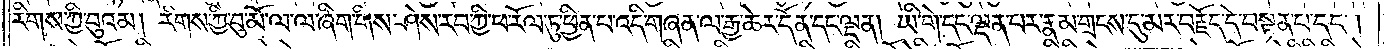རིགས་ཀྱི་བུའམ། རིགས་ཀྱི་བུ་མོ་ལ་ལ་ཞིག་གིས་ཤེས་རབ་ཀྱི་ཕ་རོལ་ཏུ་ཕྱིན་པ་འདི་གཞན་ལ་རྒྱ་ཆེར་དོན་དང་ལྡན། ཡི་གེ་དང་ལྡན་པར་རྣམ་གྲངས་དུ་མར་བརྗོད་དེ་བསྟན་པ་དང༌།
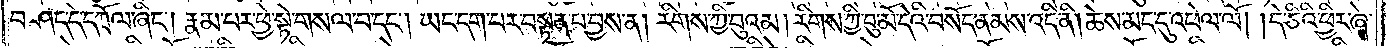བཤད་དེ་བཀྲོལ་ཞིང༌། རྣམ་པར་ཕྱེ་སྟེ་གསལ་བ་དང༌། ཡང་དག་པར་བསྟན་པ་བྱས་ན། རིགས་ཀྱི་བུའམ། རིགས་ཀྱི་བུ་མོ་དེའི་བསོད་ནམས་འདི་ནི། ཆེས་མང་དུ་འཕེལ་ལོ། །དེ་ཅིའི་ཕྱིར་ཞེ་
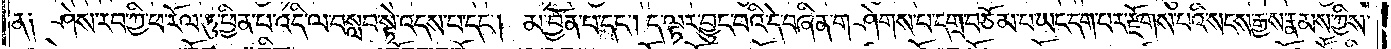ན༑ ཤེས་རབ་ཀྱི་ཕ་རོལ་ཏུ་ཕྱིན་པ་འདི་ལ་བསླབ་སྟེ་འདས་པ་དང༌། མ་བྱོན་པ་དང༌། ད་ལྟར་བྱུང་བའི་དེ་བཞིན་གཤེགས་པ་དགྲ་བཅོམ་པ་ཡང་དག་པར་རྫོགས་པའི་སངས་རྒྱས་རྣམས་ཀྱིས་
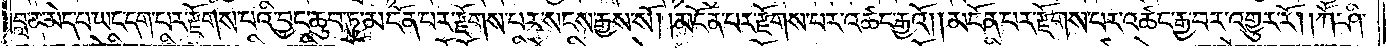བླ་ན་མེད་པ་ཡང་དག་པར་རྫོགས་པའི་བྱང་ཆུབ་ཏུ་མངོན་པར་རྫོགས་པར་སངས་རྒྱས་སོ། །མངོན་པར་རྫོགས་པར་འཚང་རྒྱའོ། །མངོན་པར་རྫོགས་པར་འཚང་རྒྱ་བར་འགྱུར་རོ། །ཀཽ་ཤི་
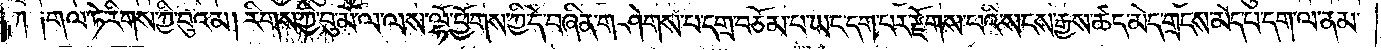ཀ  ༑གལ་ཏེ་རིགས་ཀྱི་བུའམ། རིགས་ཀྱི་བུ་མོ་ལ་ལས་ལྷོ་ཕྱོགས་ཀྱི་དེ་བཞིན་གཤེགས་པ་དགྲ་བཅོམ་པ་ཡང་དག་པར་རྫོགས་པའི་སངས་རྒྱས་ཚད་མེད་གྲངས་མེད་པ་དག་ལ་ནམ་
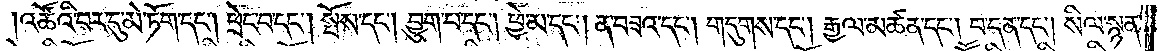འཚོའི་བར་དུ་མེ་ཏོག་དང༌། ཕྲེང་བ་དང༌། སྤོས་དང༌། བྱུག་པ་དང༌། ཕྱེ་མ་དང༌། ན་བཟའ་དང༌། གདུགས་དང༌། རྒྱལ་མཚན་དང༌། བ་དན་དང༌། སིལ་སྙན་
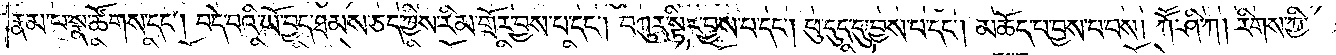རྣམ་པ་སྣ་ཚོགས་དང༌། བདེ་པའི་ཡོ་བྱད་ཐམས་ཅད་ཀྱིས་རིམ་གྲོར་བྱས་པ་དང༌། བཀུར་སྟིར་བྱས་པ་དང༌། ཕུ་དུད་དུ་བྱས་པ་དང༌། མཆོད་པ་བྱས་པ་བས། ཀཽ་ཤི་ཀ། རིགས་ཀྱི་
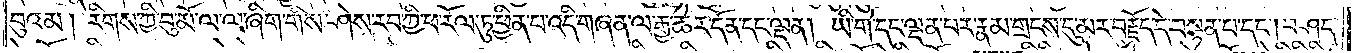བུའམ། རིགས་ཀྱི་བུ་མོ་ལ་ལ་ཞིག་གིས་ཤེས་རབ་ཀྱི་ཕ་རོལ་ཏུ་ཕྱིན་པ་འདི་གཞན་ལ་རྒྱ་ཆེར་དོན་དང་ལྡན། ཡི་གེ་དང་ལྡན་པར་རྣམ་གྲངས་དུ་མར་བརྗོད་དེ་བསྟན་པ་དང༌། བཤད་
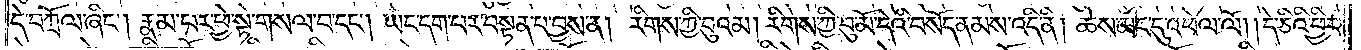དེ་བཀྲོལ་ཞིང༌། རྣམ་པར་ཕྱེ་སྟེ་གསལ་བ་དང༌། ཡང་དག་པར་བསྟན་པ་བྱས་ན། རིགས་ཀྱི་བུའམ། རིགས་ཀྱི་བུ་མོ་དེའི་བསོད་ནམས་འདི་ནི། ཆེས་མང་དུ་འཕེལ་ལོ། །དེ་ཅིའི་ཕྱིར་
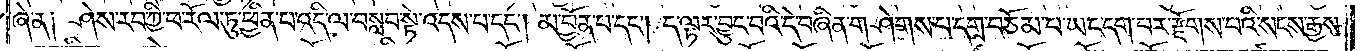ཞེ་ན༑ ཤེས་རབ་ཀྱི་ཕ་རོལ་ཏུ་ཕྱིན་པ་འདི་ལ་བསླབ་སྟེ་འདས་པ་དང༌། མ་བྱོན་པ་དང༌། ད་ལྟར་བྱུང་བའི་དེ་བཞིན་གཤེགས་པ་དགྲ་བཅོམ་པ་ཡང་དག་པར་རྫོགས་པའི་སངས་རྒྱས་
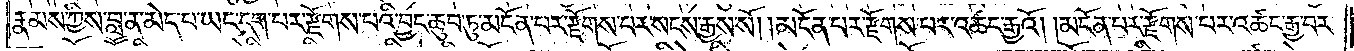རྣམས་ཀྱིས་བླ་ན་མེད་པ་ཡང་དག་པར་རྫོགས་པའི་བྱང་ཆུབ་ཏུ་མངོན་པར་རྫོགས་པར་སངས་རྒྱས་སོ། །མངོན་པར་རྫོགས་པར་འཚང་རྒྱའོ། །མངོན་པར་རྫོགས་པར་འཚང་རྒྱ་བར་
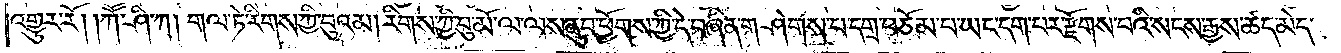འགྱུར་རོ། །ཀཽ་ཤི་ཀ། གལ་ཏེ་རིགས་ཀྱི་བུའམ། རིགས་ཀྱི་བུ་མོ་ལ་ལས་ནུབ་ཕྱོགས་ཀྱི་དེ་བཞིན་གཤེགས་པ་དགྲ་བཅོམ་པ་ཡང་དག་པར་རྫོགས་པའི་སངས་རྒྱས་ཚད་མེད་
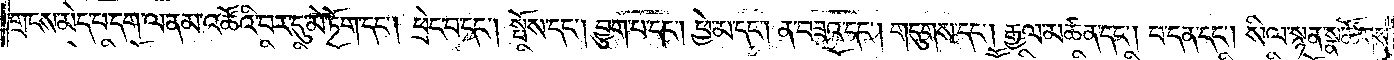གྲངས་མེད་པ་དག་ལ་ནམ་འཚོའི་བར་དུ་མེ་ཏོག་དང༌། ཕྲེང་བ་དང༌། སྤོས་དང༌། བྱུག་པ་དང༌། ཕྱེ་མ་དང༌། ན་བཟའ་དང༌། གདུགས་དང༌། རྒྱལ་མཚན་དང༌། བ་དན་དང༌། སིལ་སྙན་སྣ་ཚོགས་
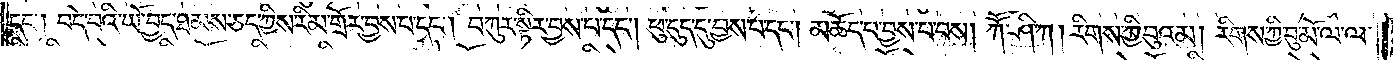དང༌། བདེ་བའི་ཡོ་བྱད་ཐམས་ཅད་ཀྱིས་རིམ་གྲོར་བྱས་པ་དང༌། བཀུར་སྟིར་བྱས་པ་དང༌། ཕུ་དུད་དུ་བྱས་པ་དང༌། མཆོད་པ་བྱས་པ་བས། ཀཽ་ཤི་ཀ། རིགས་ཀྱི་བུའམ། རིགས་ཀྱི་བུ་མོ་ལ་ལ་
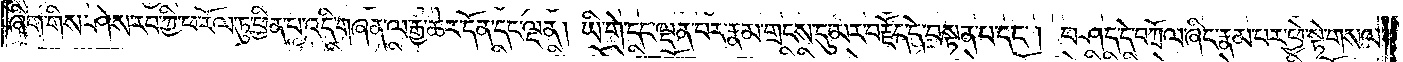ཞིག་གིས་ཤེས་རབ་ཀྱི་ཕ་རོལ་ཏུ་ཕྱིན་པ་འདི་གཞན་ལ་རྒྱ་ཆེར་དོན་དང་ལྡན། ཡི་གེ་དང་ལྡན་པར་རྣམ་གྲངས་དུ་མར་བརྗོད་དེ་བསྟན་པ་དང༌། བཤད་དེ་བཀྲོལ་ཞིང་རྣམ་པར་ཕྱེ་སྟེ་གསལ་
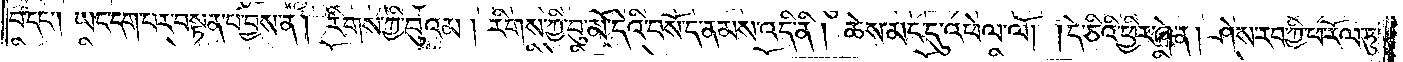བ་དང༌། ཡང་དག་པར་བསྟན་པ་བྱས་ན། རིགས་ཀྱི་བུའམ། རིགས་ཀྱི་བུ་མོ་དེའི་བསོད་ནམས་འདི་ནི། ཆེས་མང་དུ་འཕེལ་ལོ། །དེ་ཅིའི་ཕྱིར་ཞེ་ན། ཤེས་རབ་ཀྱི་ཕ་རོལ་ཏུ་
